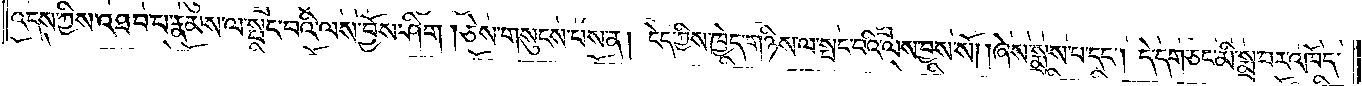འདས་ཀྱིས་འཐབ་པ་རྣམས་ལ་སྤང་བའི་ལས་བྱོས་ཤིག །ཅེས་གསུངས་པས་ན། ངེད་ཀྱིས་ཁྱེད་གཉིས་ལ་སྤང་བའི་ལས་བྱས་སོ། །ཞེས་སྨྲས་པ་དང༌། དེ་དག་ཅང་མི་སྨྲ་བར་འཁོད་
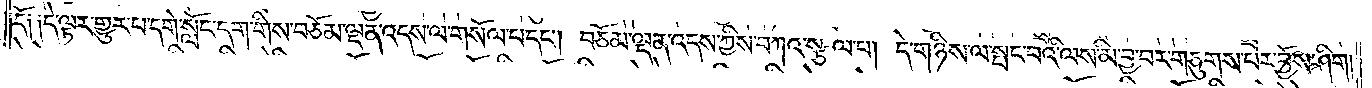དོ༑ ༑དེ་ལྟར་གྱུར་པ་དགེ་སློང་དག་གིས་བཅོམ་ལྡན་འདས་ལ་གསོལ་པ་དང༌། བཅོམ་ལྡན་འདས་ཀྱིས་བཀའ་སྩལ་པ། དེ་གཉིས་ལ་སྤང་བའི་ལས་མི་བྱ་བར་གཅུགས་པར་བྱོས་ཤིག།
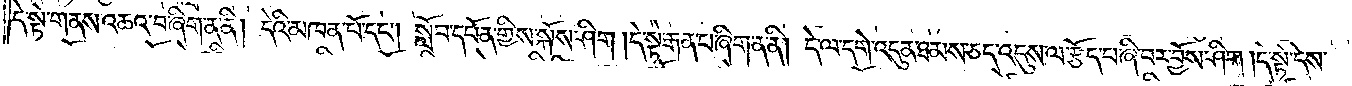དེ་སྟེ་གནས་འཆའ་བ་ཞིག་ན་ནི། དེའི་མཁན་པོ་དང༌། སློབ་དཔོན་གྱིས་སྐོས་ཤིག །དེ་སྟེ་རྒན་པ་ཞིག་ན་ནི། དེ་ལ་དགེ་འདུན་ཐམས་ཅད་འདུས་ལ་རྩོད་པ་ཞི་བར་བྱོས་ཤིག །དེ་སྟེ་དེས་
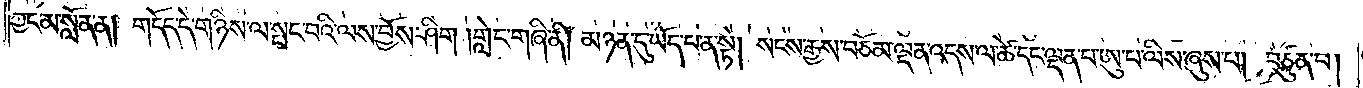ཀྱང་མ་སློན་ན། གདོད་དེ་གཉིས་ལ་སྤང་བའི་ལས་བྱོས་ཤིག །གླེང་གཞི་ནི། མཉན་དུ་ཡོད་པ་ན་སྟེ། སངས་རྒྱས་བཅོམ་ལྡན་འདས་ལ་ཚེ་དང་ལྡན་པ་ཨུ་པ་ལིས་ཞུས་པ། བཙུན་པ།
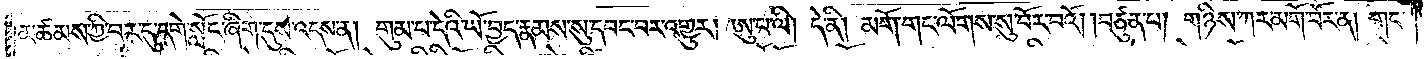མཚམས་ཀྱི་བར་དུ་དགེ་སློང་ཞིག་དུས་འདས་ན། གུམ་པ་དེའི་ཡོ་བྱད་རྣམས་སུ་དབང་བར་འགྱུར། ཨུ་པ་ལི། དེ་ནི། མགོ་གང་ལོགས་སུ་བོར་བའོ། །བཙུན་པ། གཉིས་ཀར་མགོ་བོར་ན། གང་
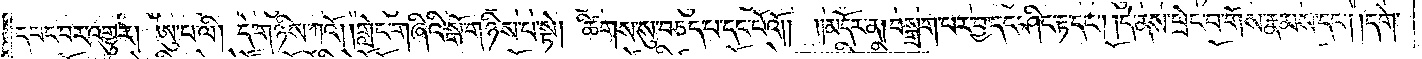དབང་བར་འགྱུར། ཨུ་པ་ལི། དེ་གཉིས་ཀའོ། །གླེང་གཞིའི་སྒོ་གཉིས་པ་སྟེ། ཚིགས་སུ་བཅད་པ་དང་པོའོ༎<gap>༎མདོར་ན། བསྒྲག་པར་བྱ་དང་ཤིང་རྟ་དང༌། །དེ་ནས་ཕྲེང་བ་གོས་རྣམས་དང༌། །དགེ་
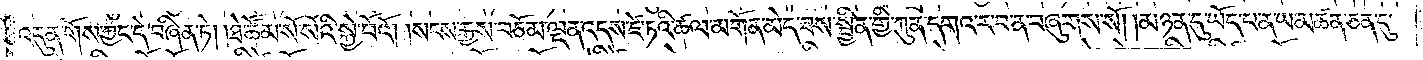འདུན་གོས་ཀྱང་དེ་བཞིན་ཏེ། །ཐེ་ཚོམ་སོ་སོའི་སྐྱེ་བོའོ། །སངས་རྒྱས་བཅོམ་ལྡན་འདས་ཛེ་ཏའི་ཚལ་མགོན་མེད་ཟས་སྦྱིན་གྱི་ཀུན་དགའ་ར་བ་ན་བཞུགས་སོ། །མཉན་དུ་ཡོད་པ་ན་ཡ་མཚན་ཅན་དུ་
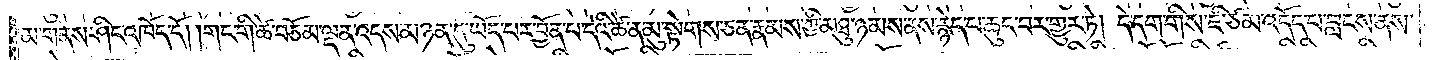མ་གནས་ཤིང་འཁོད་དོ། །གང་གི་ཚེ་བཅོམ་ལྡན་འདས་མཉན་དུ་ཡོད་པར་བྱོན་པ་དེའི་ཚེ་ན་མུ་སྟེགས་ཅན་རྣམས་ཀྱི་མཐུ་ཉམས་ནས་རྙེད་པ་ཆུང་བར་གྱུར་ཏེ། དེ་དག་གིས་ཇི་ཙམ་འདོད་པ་བླངས་ནས་
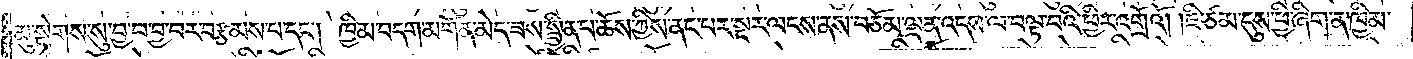མུ་སྟེགས་སུ་བྱ་བ་བྱ་བར་བརྩམས་པ་དང༌། ཁྱིམ་བདག་མགོན་མེད་ཟས་སྦྱིན་པ་ཆོས་ཀྱིས་ནང་པར་སྔར་ལངས་ནས་བཅོམ་ལྡན་འདས་ལ་བལྟ་བའི་ཕྱིར་འགྲོའོ། །ཇི་ཙམ་དུས་ཕྱི་ཞིག་ན་ཁྱིམ་
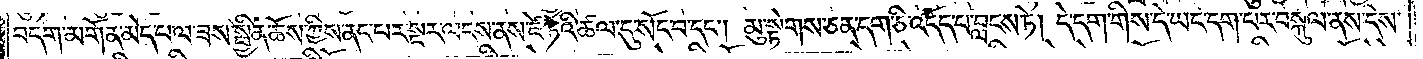བདག་མགོན་མེད་པ་ལ་ཟས་སྦྱིན་ཆོས་ཀྱིས་ནང་པར་སྔར་ལངས་ནས་ཛེ་ཏའི་ཚལ་དུ་སོང་བ་དང༌། མུ་སྟེགས་ཅན་དག་ཅི་འདོད་པ་བླངས་ཏེ། དེ་དག་གིས་དེ་ཡང་དག་པར་བསྐུལ་ནས་དེས་
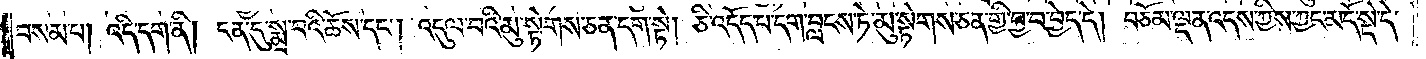བསམ་པ། འདི་དག་ནི། ངན་དུ་སྨྲ་བའི་ཆོས་དང༌། འདུལ་བའི་མུ་སྟེགས་ཅན་དག་སྟེ། ཅི་འདོད་པ་དག་བླངས་ཏེ་མུ་སྟེགས་ཅན་གྱི་བྱ་བ་བྱེད་དེ། བཅོམ་ལྡན་འདས་ཀྱིས་ཀྱང་མདོ་སྡེ་དེ་
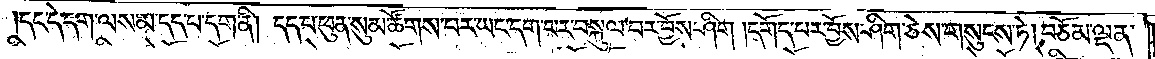དང་དེ་དག་ལས་མ་དད་པ་དག་ནི། དད་པ་ཕུན་སུམ་ཚོགས་པར་ཡང་དག་པར་བསྐུལ་བར་བྱོས་ཤིག །དགོད་པར་བྱོས་ཤིག་ཅེས་གསུངས་ཏེ། བཅོམ་ལྡན་
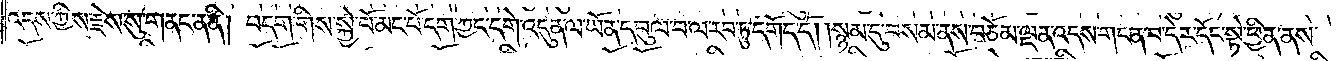འདས་ཀྱིས་རྗེས་སུ་གནང་ན་ནི། བདག་གིས་སྐྱེ་བོ་མང་པོ་དག་ཀྱང་དགེ་འདུན་ལ་ཡོན་དབུལ་བ་ལ་རབ་ཏུ་དགོད་དོ། །སྙམ་དུ་བསམ་ནས་བཅོམ་ལྡན་འདས་གང་ན་བ་དེར་དོང་སྟེ་ཕྱིན་ནས་
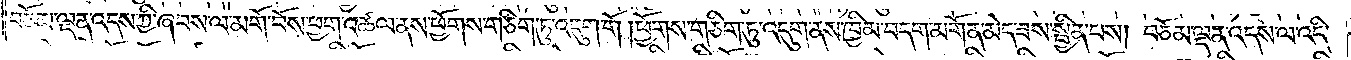བཅོམ་ལྡན་འདས་ཀྱི་ཞབས་ལ་མགོ་བོས་ཕྱག་འཚལ་ནས་ཕྱོགས་གཅིག་ཏུ་འདུག་གོ །ཕྱོགས་གཅིག་ཏུ་འདུག་ནས་ཁྱིམ་བདག་མགོན་མེད་ཟས་སྦྱིན་པས། བཅོམ་ལྡན་འདས་ལ་འདི་
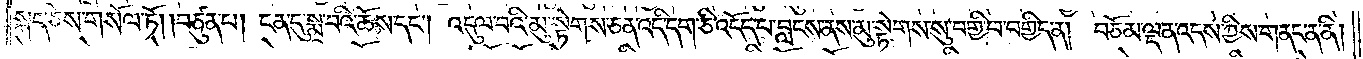སྐད་ཅེས་གསོལ་ཏོ། །བཙུན་པ། ངན་དུ་སྨྲ་བའི་ཆོས་དང༌། འདུལ་བའི་མུ་སྟེགས་ཅན་འདི་དག་ཅི་འདོད་པ་བླངས་ནས་མུ་སྟེགས་སུ་བགྱི་བ་བགྱིད་ན། བཅོམ་ལྡན་འདས་ཀྱིས་གནང་ན་ནི།
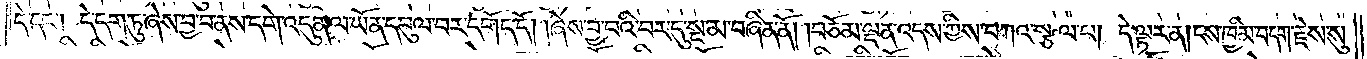དེ་དང༌། དེ་དག་ཏུ་ཞེས་བྱ་བ་ནས་དགེ་འདུན་ལ་ཡོན་དབུལ་བར་དགོད་དོ། །ཞེས་བྱ་བའི་བར་དུ་སྔ་མ་བཞིན་ནོ། །བཅོམ་ལྡན་འདས་ཀྱིས་བཀའ་སྩལ་པ། དེ་ལྟར་ན། ངས་ཁྱིམ་བདག་རྗེས་སུ་
